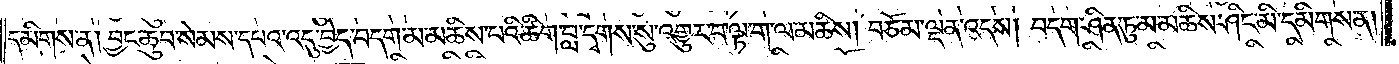དམིགས་ན། བྱང་ཆུབ་སེམས་དཔའ་འདུ་བྱེད་བདག་མ་མཆིས་པའི་ཚིག་བླ་དྭགས་སུ་འགྱུར་བ་ལྟ་ག་ལ་མཆིས། བཅོམ་ལྡན་འདས། བདག་ཤིན་ཏུ་མ་མཆིས་ཤིང་མི་དམིགས་ན།
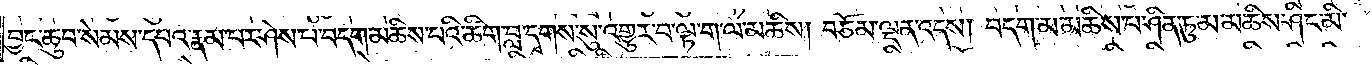བྱང་ཆུབ་སེམས་དཔའ་རྣམ་པར་ཤེས་པ་བདག་མཆིས་པའི་ཚིག་བླ་དྭགས་སུ་འགྱུར་བ་ལྟ་ག་ལ་མཆིས། བཅོམ་ལྡན་འདས། བདག་མ་མཆིས་པ་ཤིན་ཏུ་མ་མཆིས་ཤིང་མི་
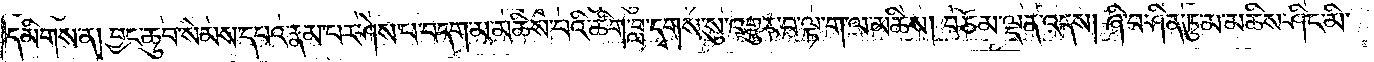དམིགས་ན། བྱང་ཆུབ་སེམས་དཔའ་རྣམ་པར་ཤེས་པ་བདག་མ་མཆིས་པའི་ཚིག་བླ་དྭགས་སུ་འགྱུར་བ་ལྟ་ག་ལ་མཆིས། བཅོམ་ལྡན་འདས། ཞི་བ་ཤིན་ཏུ་མ་མཆིས་ཤིང་མི་
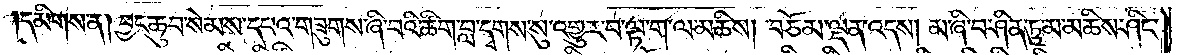དམིགས་ན། བྱང་ཆུབ་སེམས་དཔའ་གཟུགས་ཞི་བའི་ཚིག་བླ་དྭགས་སུ་འགྱུར་བ་ལྟ་ག་ལ་མཆིས། བཅོམ་ལྡན་འདས། མ་ཞི་བ་ཤིན་ཏུ་མ་མཆིས་ཤིང་
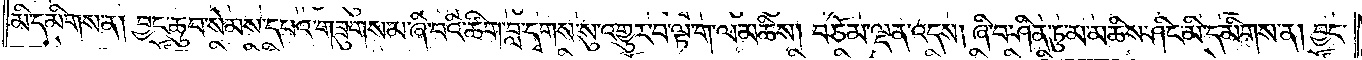མི་དམིགས་ན། བྱང་ཆུབ་སེམས་དཔའ་གཟུགས་མ་ཞི་བའི་ཚིག་བླ་དྭགས་སུ་འགྱུར་བ་ལྟ་ག་ལ་མཆིས། བཅོམ་ལྡན་འདས། ཞི་བ་ཤིན་ཏུ་མ་མཆིས་ཤིང་མི་དམིགས་ན། བྱང་
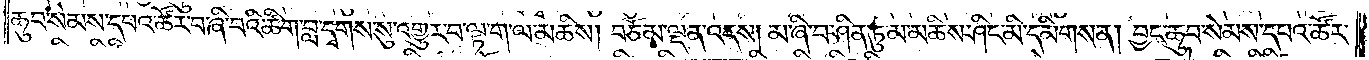ཆུབ་སེམས་དཔའ་ཚོར་བ་ཞི་བའི་ཚིག་བླ་དྭགས་སུ་འགྱུར་བ་ལྟ་ག་ལ་མཆིས། བཅོམ་ལྡན་འདས། མ་ཞི་བ་ཤིན་ཏུ་མ་མཆིས་ཤིང་མི་དམིགས་ན། བྱང་ཆུབ་སེམས་དཔའ་ཚོར་
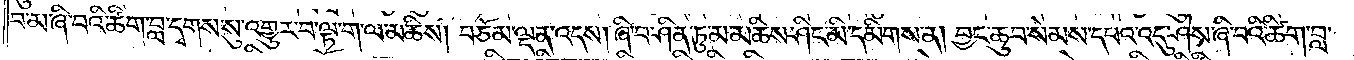བ་མ་ཞི་བའི་ཚིག་བླ་དྭགས་སུ་འགྱུར་བ་ལྟ་ག་ལ་མཆིས། བཅོམ་ལྡན་འདས། ཞི་བ་ཤིན་ཏུ་མ་མཆིས་ཤིང་མི་དམིགས་ན། བྱང་ཆུབ་སེམས་དཔའ་འདུ་ཤེས་ཞི་བའི་ཚིག་བླ་
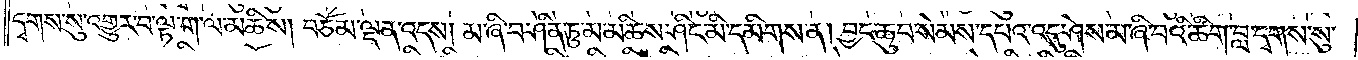དྭགས་སུ་འགྱུར་བ་ལྟ་ག་ལ་མཆིས། བཅོམ་ལྡན་འདས། མ་ཞི་བ་ཤིན་ཏུ་མ་མཆིས་ཤིང་མི་དམིགས་ན། བྱང་ཆུབ་སེམས་དཔའ་འདུ་ཤེས་མ་ཞི་བའི་ཚིག་བླ་དྭགས་སུ་
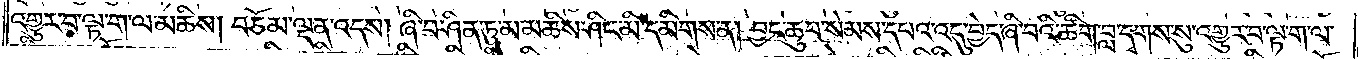འགྱུར་བ་ལྟ་ག་ལ་མཆིས། བཅོམ་ལྡན་འདས། ཞི་བ་ཤིན་ཏུ་མ་མཆིས་ཤིང་མི་དམིགས་ན། བྱང་ཆུབ་སེམས་དཔའ་འདུ་བྱེད་ཞི་བའི་ཚིག་བླ་དྭགས་སུ་འགྱུར་བ་ལྟ་ག་ལ་
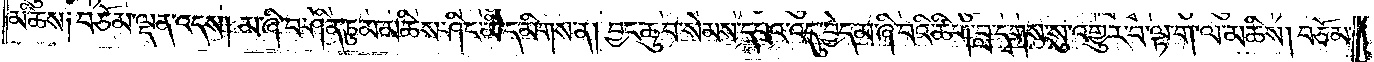མཆིས༑ བཅོམ་ལྡན་འདས། མ་ཞི་བ་ཤིན་ཏུ་མ་མཆིས་ཤིང་མི་དམིགས་ན། བྱང་ཆུབ་སེམས་དཔའ་འདུ་བྱེད་མ་ཞི་བའི་ཚིག་བླ་དྭགས་སུ་འགྱུར་བ་ལྟ་ག་ལ་མཆིས། བཅོམ་
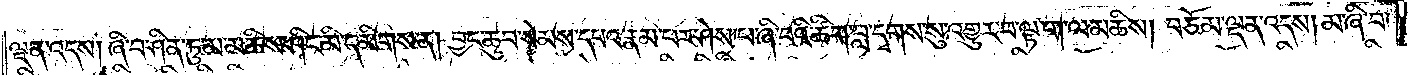ལྡན་འདས། ཞི་བ་ཤིན་ཏུ་མ་མཆིས་ཤིང་མི་དམིགས་ན། བྱང་ཆུབ་སེམས་དཔའ་རྣམ་པར་ཤེས་པ་ཞི་བའི་ཚིག་བླ་དྭགས་སུ་འགྱུར་བ་ལྟ་ག་ལ་མཆིས། བཅོམ་ལྡན་འདས། མ་ཞི་བ་
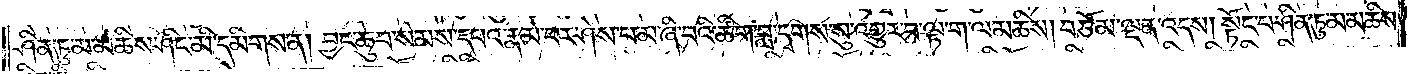ཤིན་ཏུ་མ་མཆིས་ཤིང་མི་དམིགས་ན། བྱང་ཆུབ་སེམས་དཔའ་རྣམ་པར་ཤེས་པ་མ་ཞི་བའི་ཚིག་བླ་དྭགས་སུ་འགྱུར་བ་ལྟ་ག་ལ་མཆིས། བཅོམ་ལྡན་འདས། སྟོང་པ་ཤིན་ཏུ་མ་མཆིས་
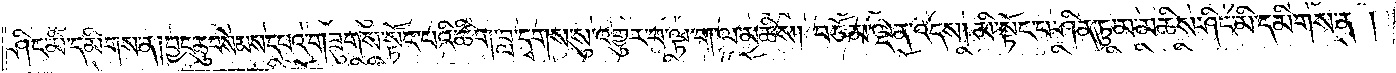ཤིང་མི་དམིགས་ན༑ བྱང་ཆུབ་སེམས་དཔའ་གཟུགས་སྟོང་པའི་ཚིག་བླ་དྭགས་སུ་འགྱུར་བ་ལྟ་ག་ལ་མཆིས། བཅོམ་ལྡན་འདས། མི་སྟོང་པ་ཤིན་ཏུ་མ་མཆིས་ཤིང་མི་དམིགས་ན །
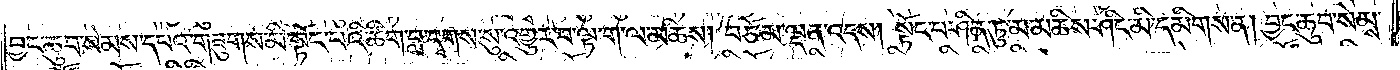བྱང་ཆུབ་སེམས་དཔའ་གཟུགས་མི་སྟོང་པའི་ཚིག་བླ་དྭགས་སུ་འགྱུར་བ་ལྟ་ག་ལ་མཆིས། བཅོམ་ལྡན་འདས། སྟོང་པ་ཤིན་ཏུ་མ་མཆིས་ཤིང་མི་དམིགས་ན། བྱང་ཆུབ་སེམས་
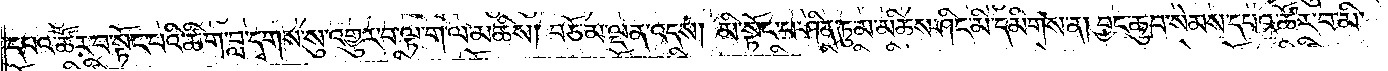དཔའ་ཚོར་བ་སྟོང་པའི་ཚིག་བླ་དྭགས་སུ་འགྱུར་བ་ལྟ་ག་ལ་མཆིས། བཅོམ་ལྡན་འདས། མི་སྟོང་པ་ཤིན་ཏུ་མ་མཆིས་ཤིང་མི་དམིགས་ན། བྱང་ཆུབ་སེམས་དཔའ་ཚོར་བ་མི་
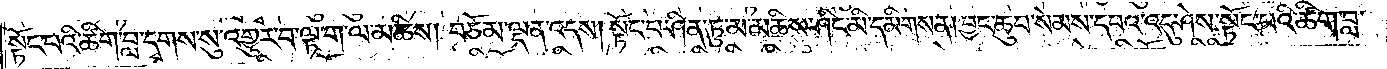སྟོང་པའི་ཚིག་བླ་དྭགས་སུ་འགྱུར་བ་ལྟ་ག་ལ་མཆིས། བཅོམ་ལྡན་འདས། སྟོང་པ་ཤིན་ཏུ་མ་མཆིས་ཤིང་མི་དམིགས་ན། བྱང་ཆུབ་སེམས་དཔའ་འདུ་ཤེས་སྟོང་པའི་ཚིག་བླ་
